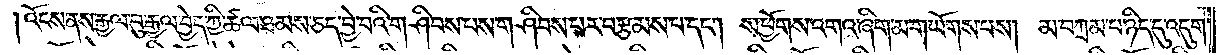།འོངས་ནས་རྒྱལ་བུ་རྒྱལ་བྱེད་ཀྱི་ཚལ་ཐམས་ཅད་བྱེ་བའི་གཤིབས་པས་གཤིབས་པར་བརྩམས་པ་དང༌། ས་ཕྱོགས་འགའ་ཞིག་མ་གཡོགས་པས། མ་བཀྲམ་པ་ཉིད་དུ་འདུག་
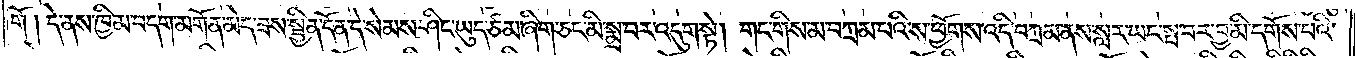གོ། དེ་ནས་ཁྱིམ་བདག་མགོན་མེད་ཟས་སྦྱིན་དོན་དེ་སེམས་ཤིང་ཡུད་ཙམ་ཞིག་ཅང་མི་སྨྲ་བར་འདུག་སྟེ། གང་གིས་མ་བཀྲམ་པའི་ས་ཕྱོགས་འདི་བཀྲམ་ནས་སླར་ཡང་སྤ་བར་བྱ་མི་དགོས་པའི་
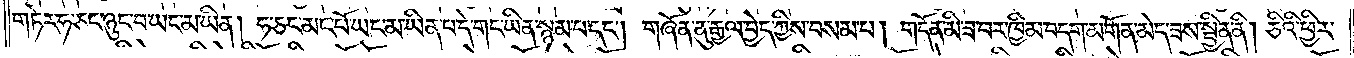གཏེར་ཧ་ཅང་ཉུང་བ་ཡང་མ་ཡིན། ཧ་ཅང་མང་པོ་ཡང་མ་ཡིན་པ་དེ་གང་ཡིན་སྙམ་པ་དང༌། གཞོན་ནུ་རྒྱལ་བྱེད་ཀྱིས་བསམ་པ། གདོན་མི་ཟ་བར་ཁྱིམ་བདག་མགོན་མེད་ཟས་སྦྱིན་ནི། །ཅིའི་ཕྱིར་
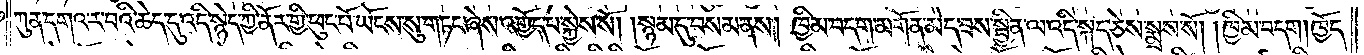ཀུན་དགའ་ར་བའི་ཆེད་དུ་འདི་སྙེད་ཀྱི་ནོར་གྱི་ཕུང་པོ་ཡོངས་སུ་གཏང་ཞེས་འགྱོད་པ་སྐྱེས་སོ། །སྙམ་དུ་བསམ་ནས། ཁྱིམ་བདག་མགོན་མེད་ཟས་སྦྱིན་ལ་འདི་སྐད་ཅེས་སྨྲས་སོ། །ཁྱིམ་བདག། ཁྱོད་
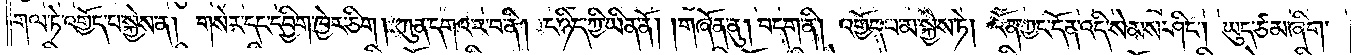གལ་ཏེ་འགྱོད་པ་སྐྱེས་ན། གསེར་དང་དབྱིག་ཁྱེར་ཅིག །ཀུན་དགའ་ར་བ་ནི། ང་ཉིད་ཀྱི་ཡིན་ནོ། །གཞོན་ནུ། བདག་ནི། འགྱོད་པ་མ་སྐྱེས་ཏེ། འོན་ཀྱང་དོན་འདི་སེམས་ཤིང༌། ཡུད་ཙམ་ཞིག་
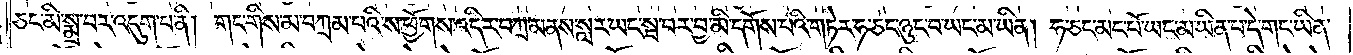ཅང་མི་སྨྲ་བར་འདུག་པ་ནི། གང་གིས་མ་བཀྲམ་པའི་ས་ཕྱོགས་འདིར་བཀྲམ་ནས་སླར་ཡང་སྦ་བར་བྱ་མི་དགོས་པའི་གཏེར་ཧ་ཅང་ཉུང་བ་ཡང་མ་ཡིན། ཧ་ཅང་མང་པོ་ཡང་མ་ཡིན་པ་དེ་གང་ཡིན་
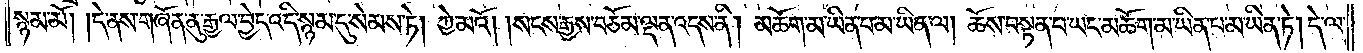སྙམ་མོ། །དེ་ནས་གཞོན་ནུ་རྒྱལ་བྱེད་འདི་སྙམ་དུ་སེམས་ཏེ། ཀྱེ་མའོ། །སངས་རྒྱས་བཅོམ་ལྡན་འདས་ནི། མཆོག་མ་ཡིན་པ་མ་ཡིན་ལ། ཆོས་བསྟན་པ་ཡང་མཆོག་མ་ཡིན་པ་མ་ཡིན་ཏེ། དེ་ལ་
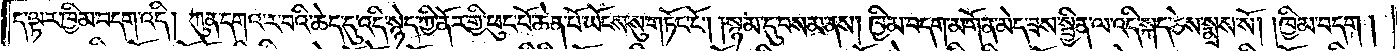ད་ལྟར་ཁྱིམ་བདག་འདི། ཀུན་དགའ་ར་བའི་ཆེད་དུ་འདི་སྙེད་ཀྱི་ནོར་གྱི་ཕུང་པོ་ཆེན་པོ་ཡོངས་སུ་གཏོང་ངོ༌། །སྙམ་དུ་བསམ་ནས། ཁྱིམ་བདག་མགོན་མེད་ཟས་སྦྱིན་ལ་འདི་སྐད་ཅེས་སྨྲས་སོ། །ཁྱིམ་བདག།
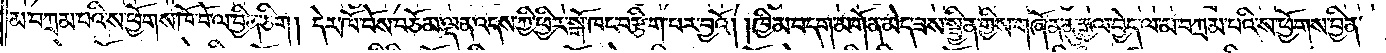མ་བཀྲམ་པའི་ས་ཕྱོགས་ཁོ་བོ་ལ་བྱིན་ཅིག། དེར་ཁོ་བོས་བཅོམ་ལྡན་འདས་ཀྱི་ཕྱིར་སྒོ་ཁང་བརྩིག་པར་བྱའོ། །ཁྱིམ་བདག་མགོན་མེད་ཟས་སྦྱིན་གྱིས་གཞོན་ནུ་རྒྱལ་བྱེད་ལ་མ་བཀྲམ་པའི་ས་ཕྱོགས་བྱིན་
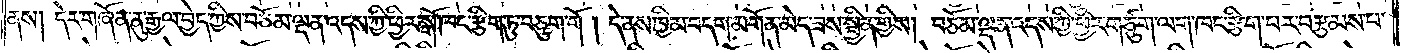ནས། དེར་གཞོན་ནུ་རྒྱལ་བྱེད་ཀྱིས་བཅོམ་ལྡན་འདས་ཀྱི་ཕྱིར་སྒོ་ཁང་རྩིག་ཏུ་བཅུག་གོ། དེ་ནས་ཁྱིམ་བདག་མགོན་མེད་ཟས་སྦྱིན་གྱིས། བཅོམ་ལྡན་འདས་ཀྱི་ཕྱིར་གཙུག་ལག་ཁང་རྩིག་པར་བརྩམས་པ་
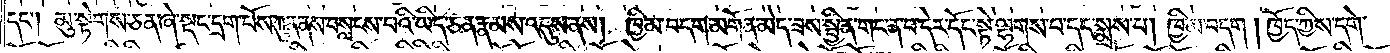དང༌། མུ་སྟེགས་ཅན་ཞེ་སྡང་དྲག་པོས་ཀུན་ནས་བསླངས་པའི་ཡིད་ཅན་རྣམས་འདུས་ནས། ཁྱིམ་བདག་མགོན་མེད་ཟས་སྦྱིན་གང་ན་བ་དེར་དོང་སྟེ་ལྷགས་པ་དང་སྨྲས་པ། ཁྱིམ་བདག །ཁྱོད་ཀྱིས་དགེ་
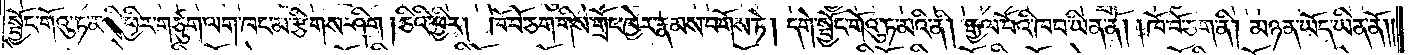སྦྱོང་གོའུ་ཏ་མའི་ཕྱིར་གཙུག་ལག་ཁང་མ་རྩིགས་ཤིག །ཅིའི་ཕྱིར། ཁོ་བོ་ཅག་གིས་གྲོང་ཁྱེར་རྣམས་བགོས་ཏེ། དགེ་སྦྱོང་གོའུ་ཏ་མའི་ནི། རྒྱལ་པོའི་ཁབ་ཡིན་ནོ། ཁོ་བོ་ཅག་ནི། མཉན་ཡོད་ཡིན་ནོ༎
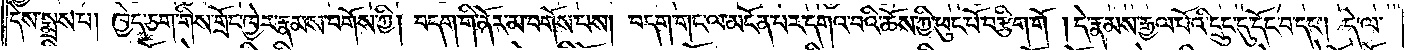དེས་སྨྲས་པ། ཁྱེད་ཅག་གིས་གྲོང་ཁྱེར་རྣམས་བགོས་ཀྱི། བདག་གི་ནོར་མ་བགོས་པས། བདག་གང་ལ་མངོན་པར་དགའ་བའི་ཆོས་ཀྱི་ཕུང་པོ་བརྩིག་གོ །དེ་རྣམས་རྒྱལ་པོའི་དྲུང་དུ་དོང་བ་དང༌། དེ་ལ་
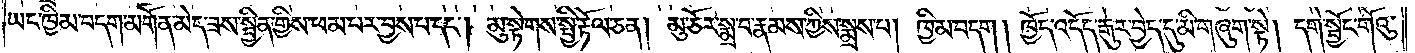ཡང་ཁྱིམ་བདག་མགོན་མེད་ཟས་སྦྱིན་གྱིས་ཕམ་པར་བྱས་པ་དང༌། མུ་སྟེགས་སྤྱི་རྟོལ་ཅན། མུ་ཅོར་སྨྲ་བ་རྣམས་ཀྱིས་སྨྲས་པ། ཁྱིམ་བདག། ཁྱོད་འདོད་རྒུར་བྱེད་དུ་མི་གཞུག་སྟེ། དགེ་སྦྱོང་གོའུ་
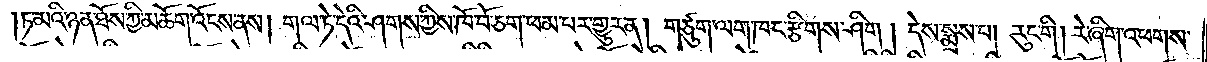།ཏ་མའི་ཉན་ཐོས་ཀྱི་མཆོག་འོངས་ནས། གལ་ཏེ་དེའི་ཤགས་ཀྱིས་ཁོ་བོ་ཅག་ཕམ་པར་གྱུར་ན། གཙུག་ལག་ཁང་རྩིགས་ཤིག །དེས་སྨྲས་པ། རུང་གི། རེ་ཞིག་འཕགས་
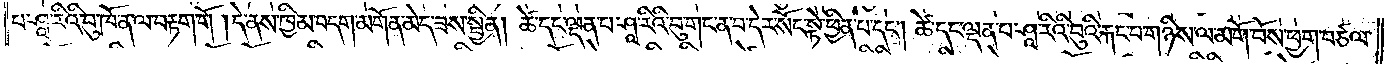པ་ཤཱ་རིའི་བུ་ཁོ་ན་ལ་བརྟག་གོ །དེ་ནས་ཁྱིམ་བདག་མགོན་མེད་ཟས་སྦྱིན། ཚེ་དང་ལྡན་པ་ཤཱ་རིའི་བུ་གང་ན་བ་དེར་སོང་སྟེ་ཕྱིན་པ་དང༌། ཚེ་དང་ལྡན་པ་ཤཱ་རིའི་བུའི་རྐང་པ་གཉིས་ལ་མགོ་བོས་ཕྱག་བཙལ་
